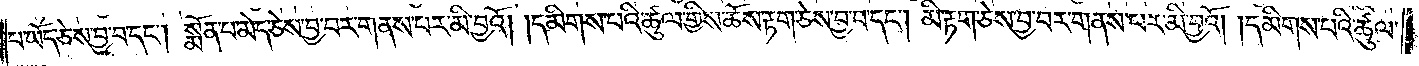པ་ཡོད་ཅེས་བྱ་བ་དང༌། སྨོན་པ་མེད་ཅེས་བྱ་བར་གནས་པར་མི་བྱའོ། །དམིགས་པའི་ཚུལ་གྱིས་ཆོས་རྟག་ཅེས་བྱ་བ་དང༌། མི་རྟག་ཅེས་བྱ་བར་གནས་པར་མི་བྱའོ། །དམིགས་པའི་ཚུལ་
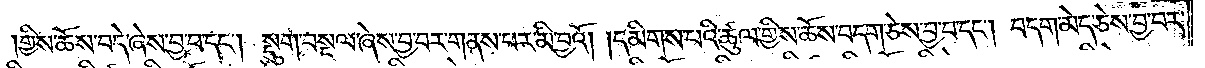གྱིས་ཆོས་བདེ་ཞེས་བྱ་བ་དང༌། སྡུག་བསྔལ་ཞེས་བྱ་བར་གནས་པར་མི་བྱའོ། །དམིགས་པའི་ཚུལ་གྱིས་ཆོས་བདག་ཅེས་བྱ་བ་དང༌། བདག་མེད་ཅེས་བྱ་བར་
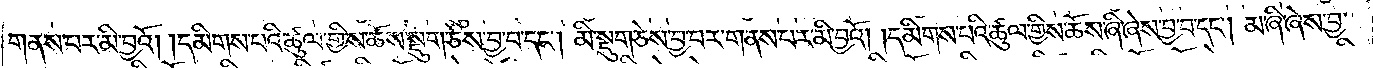གནས་པར་མི་བྱའོ། །དམིགས་པའི་ཚུལ་གྱིས་ཆོས་སྡུག་ཅེས་བྱ་བ་དང༌། མི་སྡུག་ཅེས་བྱ་བར་གནས་པར་མི་བྱའོ། །དམིགས་པའི་ཚུལ་གྱིས་ཆོས་ཞི་ཞེས་བྱ་བ་དང༌། མ་ཞི་ཞེས་བྱ་
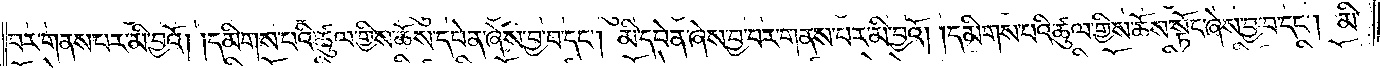བར་གནས་པར་མི་བྱའོ། །དམིགས་པའི་ཚུལ་གྱིས་ཆོས་དབེན་ཞེས་བྱ་བ་དང༌། མི་དབེན་ཞེས་བྱ་བར་གནས་པར་མི་བྱའོ། །དམིགས་པའི་ཚུལ་གྱིས་ཆོས་སྟོང་ཞེས་བྱ་བ་དང༌། མི་
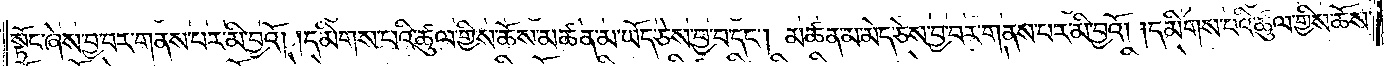སྟོང་ཞེས་བྱ་བར་གནས་པར་མི་བྱའོ། །དམིགས་པའི་ཚུལ་གྱིས་ཆོས་མཚན་མ་ཡོད་ཅེས་བྱ་བ་དང༌། མཚན་མ་མེད་ཅེས་བྱ་བར་གནས་པར་མི་བྱའོ། །དམིགས་པའི་ཚུལ་གྱིས་ཆོས་
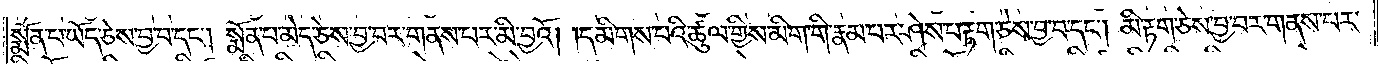སྨོན་པ་ཡོད་ཅེས་བྱ་བ་དང༌། སྨོན་པ་མེད་ཅེས་བྱ་བར་གནས་པར་མི་བྱའོ། །དམིགས་པའི་ཚུལ་གྱིས་མིག་གི་རྣམ་པར་ཤེས་པ་རྟག་ཅེས་བྱ་བ་དང༌། མི་རྟག་ཅེས་བྱ་བར་གནས་པར་
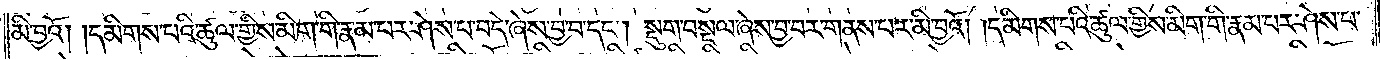མི་བྱའོ། །དམིགས་པའི་ཚུལ་གྱིས་མིག་གི་རྣམ་པར་ཤེས་པ་བདེ་ཞེས་བྱ་བ་དང༌། སྡུག་བསྔལ་ཞེས་བྱ་བར་གནས་པར་མི་བྱའོ། །དམིགས་པའི་ཚུལ་གྱིས་མིག་གི་རྣམ་པར་ཤེས་པ་
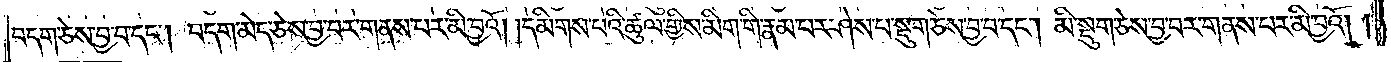བདག་ཅེས་བྱ་བ་དང༌། བདག་མེད་ཅེས་བྱ་བར་གནས་པར་མི་བྱའོ། །དམིགས་པའི་ཚུལ་གྱིས་མིག་གི་རྣམ་པར་ཤེས་པ་སྡུག་ཅེས་བྱ་བ་དང༌། མི་སྡུག་ཅེས་བྱ་བར་གནས་པར་མི་བྱའོ། །
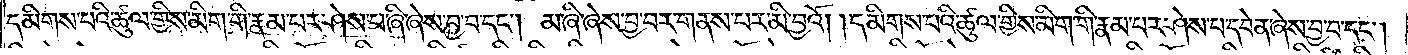དམིགས་པའི་ཚུལ་གྱིས་མིག་གི་རྣམ་པར་ཤེས་པ་ཞི་ཞེས་བྱ་བ་དང༌། མ་ཞི་ཞེས་བྱ་བར་གནས་པར་མི་བྱའོ། །དམིགས་པའི་ཚུལ་གྱིས་མིག་གི་རྣམ་པར་ཤེས་པ་དབེན་ཞེས་བྱ་བ་དང༌།
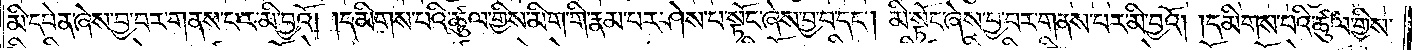མི་དབེན་ཞེས་བྱ་བར་གནས་པར་མི་བྱའོ། །དམིགས་པའི་ཚུལ་གྱིས་མིག་གི་རྣམ་པར་ཤེས་པ་སྟོང་ཞེས་བྱ་བ་དང༌། མི་སྟོང་ཞེས་བྱ་བར་གནས་པར་མི་བྱའོ། །དམིགས་པའི་ཚུལ་གྱིས་
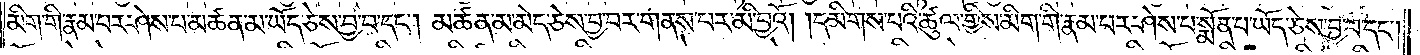མིག་གི་རྣམ་པར་ཤེས་པ་མཚན་མ་ཡོད་ཅེས་བྱ་བ་དང༌། མཚན་མ་མེད་ཅེས་བྱ་བར་གནས་པར་མི་བྱའོ། །དམིགས་པའི་ཚུལ་གྱིས་མིག་གི་རྣམ་པར་ཤེས་པ་སྨོན་པ་ཡོད་ཅེས་བྱ་བ་དང་
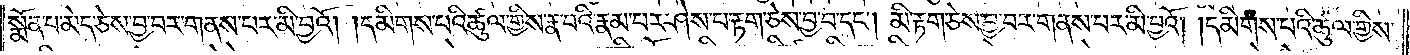སྨོན་པ་མེད་ཅེས་བྱ་བར་གནས་པར་མི་བྱའོ། །དམིགས་པའི་ཚུལ་གྱིས་རྣ་བའི་རྣམ་པར་ཤེས་པ་རྟག་ཅེས་བྱ་བ་དང༌། མི་རྟག་ཅེས་བྱ་བར་གནས་པར་མི་བྱའོ། །དམིགས་པའི་ཚུལ་གྱིས་
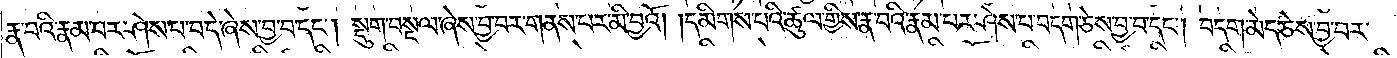རྣ་བའི་རྣམ་པར་ཤེས་པ་བདེ་ཞེས་བྱ་བ་དང༌། སྡུག་བསྔལ་ཞེས་བྱ་བར་གནས་པར་མི་བྱའོ། །དམིགས་པའི་ཚུལ་གྱིས་རྣ་བའི་རྣམ་པར་ཤེས་པ་བདག་ཅེས་བྱ་བ་དང༌། བདག་མེད་ཅེས་བྱ་བར་
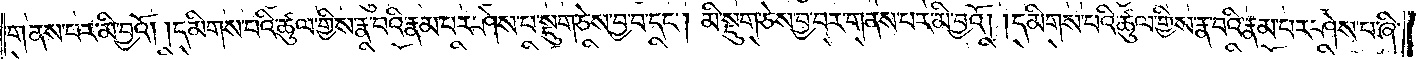གནས་པར་མི་བྱའོ། །དམིགས་པའི་ཚུལ་གྱིས་རྣ་བའི་རྣམ་པར་ཤེས་པ་སྡུག་ཅེས་བྱ་བ་དང༌། མི་སྡུག་ཅེས་བྱ་བར་གནས་པར་མི་བྱའོ། །དམིགས་པའི་ཚུལ་གྱིས་རྣ་བའི་རྣམ་པར་ཤེས་པ་ཞི་
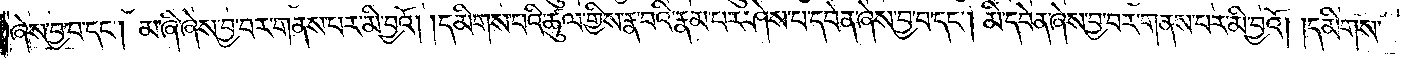ཞེས་བྱ་བ་དང༌། མ་ཞི་ཞེས་བྱ་བར་གནས་པར་མི་བྱའོ། །དམིགས་པའི་ཚུལ་གྱིས་རྣ་བའི་རྣམ་པར་ཤེས་པ་དབེན་ཞེས་བྱ་བ་དང༌། མི་དབེན་ཞེས་བྱ་བར་གནས་པར་མི་བྱའོ། །དམིགས་
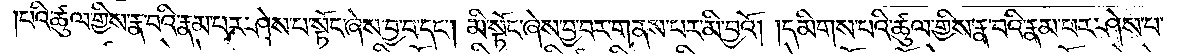པའི་ཚུལ་གྱིས་རྣ་བའི་རྣམ་པར་ཤེས་པ་སྟོང་ཞེས་བྱ་བ་དང༌། མི་སྟོང་ཞེས་བྱ་བར་གནས་པར་མི་བྱའོ། །དམིགས་པའི་ཚུལ་གྱིས་རྣ་བའི་རྣམ་པར་ཤེས་པ་
